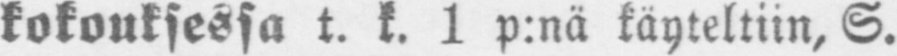kokouksessa t. k. 1 p:nä käyteltiin, S.
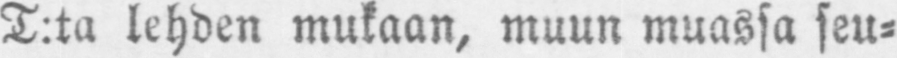T:ta lehden mukaan, muun muassa seu-
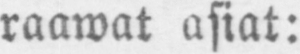raawat asiat:
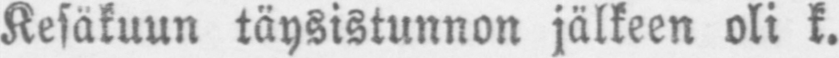Kesäkuun täysistunnon jälkeen oli k.
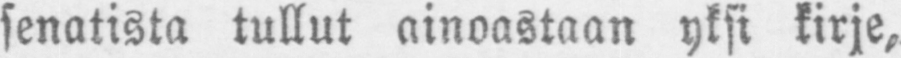senatista tullut ainoastaan yksi kirje,
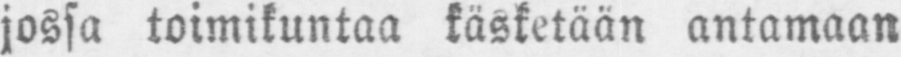jossa toimikuntaa käsketään antamaan
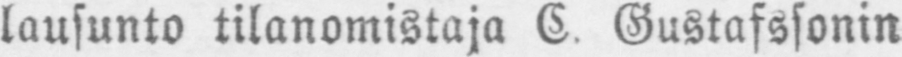lausunto tilanomistaja C. Gustafssonin.
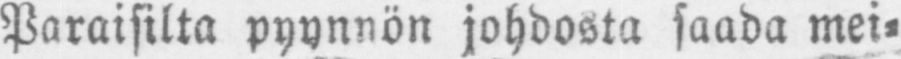Paraisilta pyynnön johdosta saada mei-
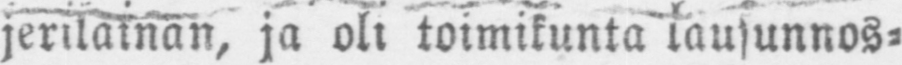jerilainan, ja oli toimikunta lausunnos-
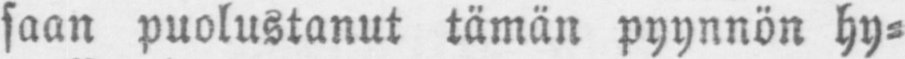saan puolustanut tämän pyynnön hy-
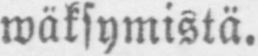wäksymistä.
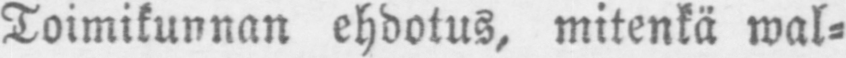Toimikunnan ehdotus, mitenkä wal-
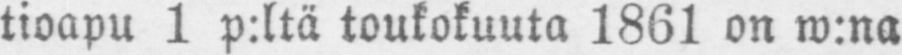tioapu 1 p:ltä toukokuuta 1861 on w:na
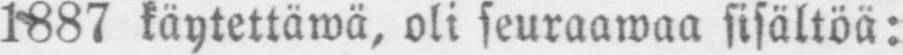1887 käytettäwä, oli seuraawaa sisältöä:
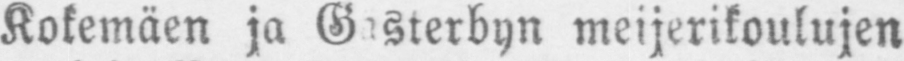Kokemäen ja Gasterbyn meijerikoulujen
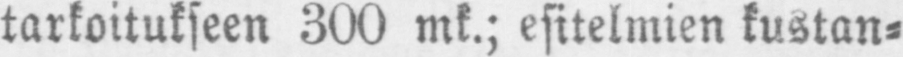tarkoitukseen 300 mk.; esitelmien kustan-
